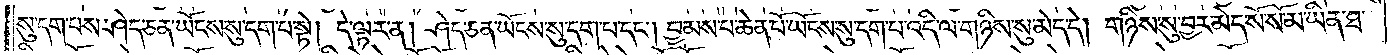སུ་དག་པས་ཤེད་ཅན་ཡོངས་སུ་དག་པ་སྟེ། དེ་ལྟར་ན། ཤེད་ཅན་ཡོངས་སུ་དག་པ་དང༌། བྱམས་པ་ཆེན་པོ་ཡོངས་སུ་དག་པ་འདི་ལ་གཉིས་སུ་མེད་དེ། གཉིས་སུ་བྱར་མེད་སོ་སོ་མ་ཡིན་ཐ་
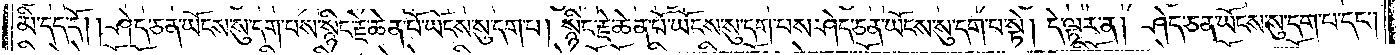མི་དད་དོ། །ཤེད་ཅན་ཡོངས་སུ་དག་པས་སྙིང་རྗེ་ཆེན་པོ་ཡོངས་སུ་དག་པ། སྙིང་རྗེ་ཆེན་པོ་ཡོངས་སུ་དག་པས་ཤེད་ཅན་ཡོངས་སུ་དག་པ་སྟེ། དེ་ལྟར་ན། ཤེད་ཅན་ཡོངས་སུ་དག་པ་དང༌།
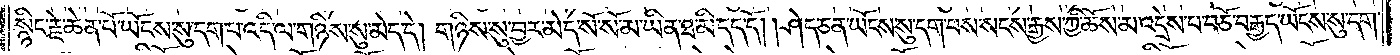སྙིང་རྗེ་ཆེན་པོ་ཡོངས་སུ་དག་པ་འདི་ལ་གཉིས་སུ་མེད་དེ། གཉིས་སུ་བྱར་མེད་སོ་སོ་མ་ཡིན་ཐ་མི་དད་དོ། །ཤེད་ཅན་ཡོངས་སུ་དག་པས་སངས་རྒྱས་ཀྱི་ཆོས་མ་འདྲེས་པ་བཅོ་བརྒྱད་ཡོངས་སུ་དག་
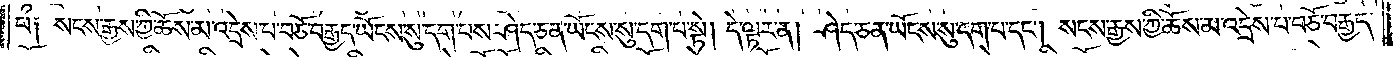པ༑ སངས་རྒྱས་ཀྱི་ཆོས་མ་འདྲེས་པ་བཅོ་བརྒྱད་ཡོངས་སུ་དག་པས་ཤེད་ཅན་ཡོངས་སུ་དག་པ་སྟེ། དེ་ལྟར་ན། ཤེད་ཅན་ཡོངས་སུ་དག་པ་དང༌། སངས་རྒྱས་ཀྱི་ཆོས་མ་འདྲེས་པ་བཅོ་བརྒྱད་
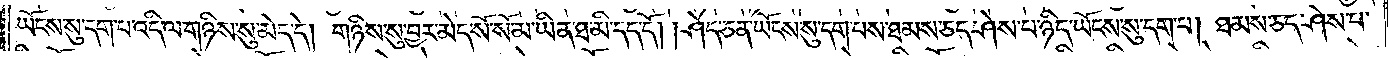ཡོངས་སུ་དག་པ་འདི་ལ་གཉིས་སུ་མེད་དེ། གཉིས་སུ་བྱར་མེད་སོ་སོ་མ་ཡིན་ཐ་མི་དད་དོ། །ཤེད་ཅན་ཡོངས་སུ་དག་པས་ཐམས་ཅད་ཤེས་པ་ཉིད་ཡོངས་སུ་དག་པ། ཐམས་ཅད་ཤེས་པ་
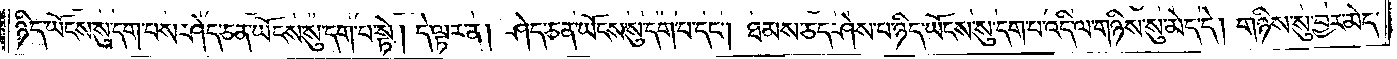ཉིད་ཡོངས་སུ་དག་པས་ཤེད་ཅན་ཡོངས་སུ་དག་པ་སྟེ། དེ་ལྟར་ན། ཤེད་ཅན་ཡོངས་སུ་དག་པ་དང༌། ཐམས་ཅད་ཤེས་པ་ཉིད་ཡོངས་སུ་དག་པ་འདི་ལ་གཉིས་སུ་མེད་དེ། གཉིས་སུ་བྱར་མེད་
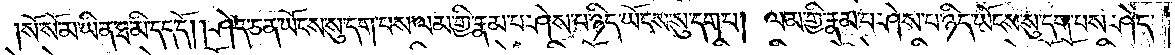སོ་སོ་མ་ཡིན་ཐ་མི་དད་དོ། །ཤེད་ཅན་ཡོངས་སུ་དག་པས་ལམ་གྱི་རྣམ་པ་ཤེས་པ་ཉིད་ཡོངས་སུ་དག་པ། ལམ་གྱི་རྣམ་པ་ཤེས་པ་ཉིད་ཡོངས་སུ་དག་པས་ཤེད་
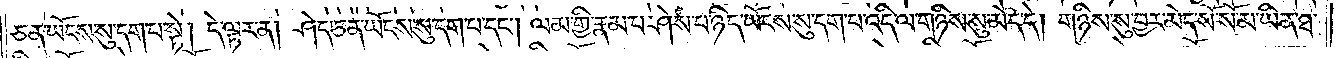ཅན་ཡོངས་སུ་དག་པ་སྟེ། དེ་ལྟར་ན། ཤེད་ཅན་ཡོངས་སུ་དག་པ་དང༌། ལམ་གྱི་རྣམ་པ་ཤེས་པ་ཉིད་ཡོངས་སུ་དག་པ་འདི་ལ་གཉིས་སུ་མེད་དེ། གཉིས་སུ་བྱར་མེད་སོ་སོ་མ་ཡིན་ཐ་
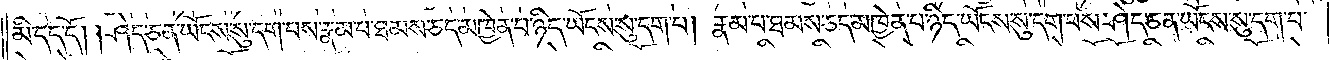མི་དད་དོ། །ཤེད་ཅན་ཡོངས་སུ་དག་པས་རྣམ་པ་ཐམས་ཅད་མཁྱེན་པ་ཉིད་ཡོངས་སུ་དག་པ། རྣམ་པ་ཐམས་ཅད་མཁྱེན་པ་ཉིད་ཡོངས་སུ་དག་པས་ཤེད་ཅན་ཡོངས་སུ་དག་པ་
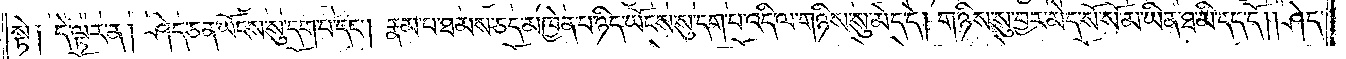སྟེ༑ དེ་ལྟར་ན། ཤེད་ཅན་ཡོངས་སུ་དག་པ་དང༌། རྣམ་པར་ཐམས་ཅད་མཁྱེན་པ་ཉིད་ཡོངས་སུ་དག་པ་འདི་ལ་གཉིས་སུ་མེད་དེ། གཉིས་སུ་བྱར་མེད་སོ་སོ་མ་ཡིན་ཐ་མི་དད་དོ། །ཤེད་
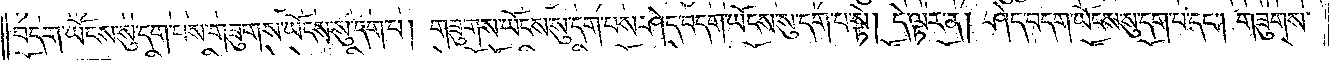བདག་ཡོངས་སུ་དག་པས་གཟུགས་ཡོངས་སུ་དག་པ། གཟུགས་ཡོངས་སུ་དག་པས་ཤེད་བདག་ཡོངས་སུ་དག་པ་སྟེ། དེ་ལྟར་ན། ཤེད་བདག་ཡོངས་སུ་དག་པ་དང༌། གཟུགས་
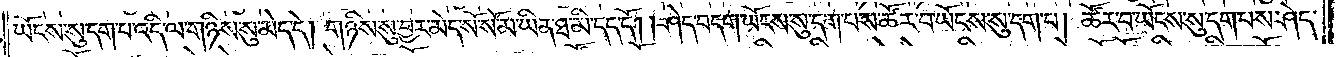ཡོངས་སུ་དག་པ་འདི་ལ་གཉིས་སུ་མེད་དེ། གཉིས་སུ་བྱར་མེད་སོ་སོ་མ་ཡིན་ཐ་མི་དད་དོ། །ཤེད་བདག་ཡོངས་སུ་དག་པས་ཚོར་བ་ཡོངས་སུ་དག་པ། ཚོར་བ་ཡོངས་སུ་དག་པས་ཤེད་
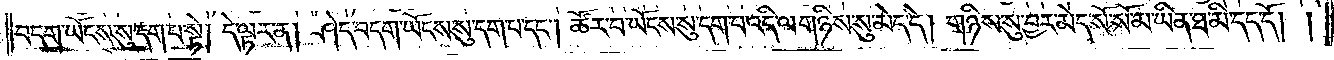བདག་ཡོངས་སུ་དག་པ་སྟེ། དེ་ལྟར་ན། ཤེད་བདག་ཡོངས་སུ་དག་པ་དང༌། ཚོར་བ་ཡོངས་སུ་དག་པ་འདི་ལ་གཉིས་སུ་མེད་དེ། གཉིས་སུ་བྱར་མེད་སོ་སོ་མ་ཡིན་ཐ་མི་དད་དོ། །
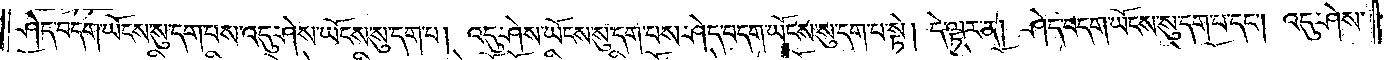ཤེད་བདག་ཡོངས་སུ་དག་པས་འདུ་ཤེས་ཡོངས་སུ་དག་པ། འདུ་ཤེས་ཡོངས་སུ་དག་པས་ཤེད་བདག་ཡོངས་སུ་དག་པ་སྟེ། དེ་ལྟར་ན། ཤེད་བདག་ཡོངས་སུ་དག་པ་དང༌། འདུ་ཤེས་
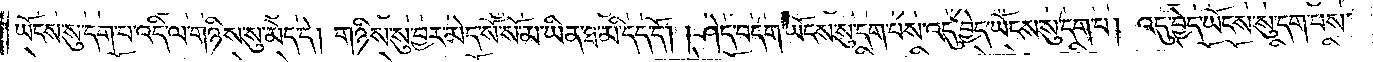ཡོངས་སུ་དག་པ་འདི་ལ་གཉིས་སུ་མེད་དེ། གཉིས་སུ་བྱར་མེད་སོ་སོ་མ་ཡིན་ཐ་མི་དད་དོ། །ཤེད་བདག་ཡོངས་སུ་དག་པས་འདུ་བྱེད་ཡོངས་སུ་དག་པ། འདུ་བྱེད་ཡོངས་སུ་དག་པས་
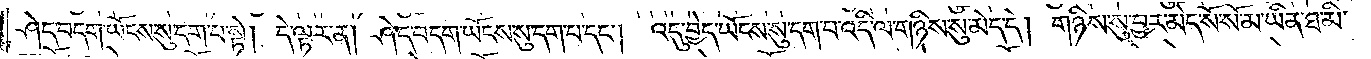ཤེད་བདག་ཡོངས་སུ་དག་པ་སྟེ། དེ་ལྟར་ན། ཤེད་བདག་ཡོངས་སུ་དག་པ་དང༌། འདུ་བྱེད་ཡོངས་སུ་དག་པ་འདི་ལ་གཉིས་སུ་མེད་དེ། གཉིས་སུ་བྱར་མེད་སོ་སོ་མ་ཡིན་ཐ་མི་
